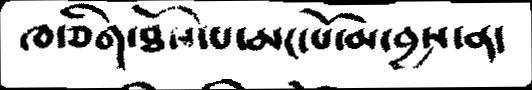ཁ་ཅིག་ཐོས་སཔ་མང་པོ་མ་བྱས་ན་
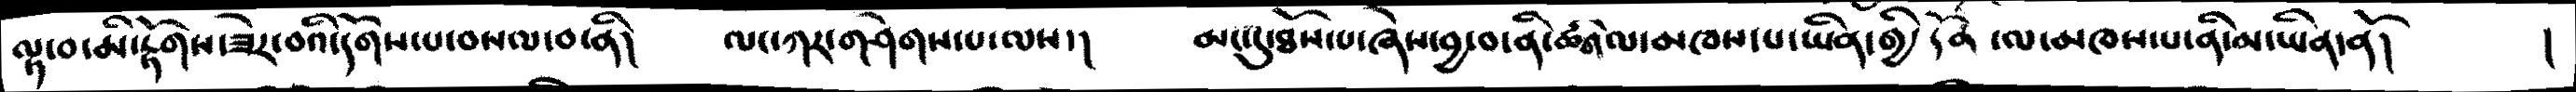ལྟ་བ་མི་རྟོགས་ཟེར་བའི་དགོས་པ་བསལ་བ་ནི།   ལང་ཀར་གཤེགས་པ་ལས་།     མང་དུ་ཐོས་པ་ཞེས་བྱ་བ་ནི་ཚིགལ་མཁས་པ་ཡིན་ དོན་ལ་མཁས་པ་ནི་མ་ཡིན་ནོ།
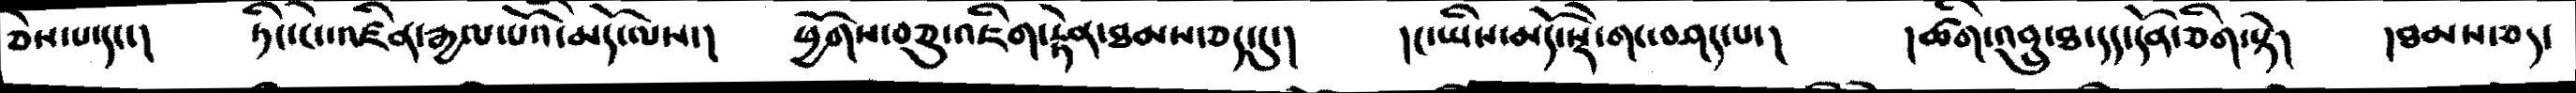ཅེས་པ་དང་།   ཏིང་ངེ་འཛིན་རྒྱལ་པོའི་མདོ་ལས་།    ཕྱོགས་བཅུའི་འཇིག་རྟེན་ཐམས་ཅད་དུ་།    །ང་ཡིས་མདོ་སྡེ་གང་བཤད་པ་།   །ཚིག་འབྲུ་ཐ་དད་དོན་ཅིག་སྟེ།   །ཐམས་ཅད་
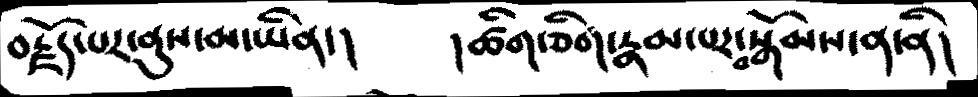བརྗོད་པར་ནུས་མ་ཡིན་།     །ཚིག་ཅིག་རྣམ་པར་བསྒོམས་ན་ནི།
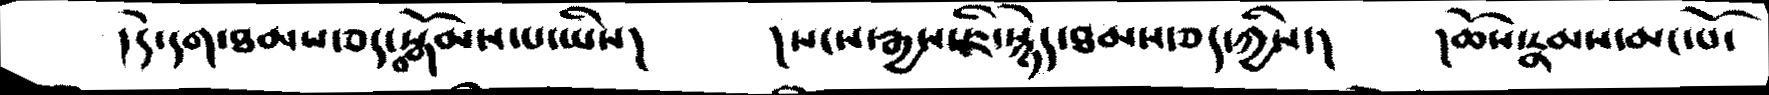།དེ་དག་ཐམས་ཅད་བསྒོམས་པ་ཡིས།      །སངས་རྒྱས་ཇི་སྙེད་ཐམས་ཅད་ཀྱིས་།      །ཆོས་རྣམས་མང་པོ་
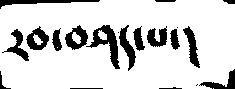རབ་བཤད་པ་།
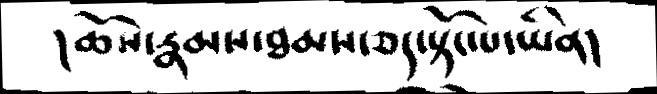།ཆོས་རྣམས་ཐམས་ཅད་སྟོང་པ་ཡིན།
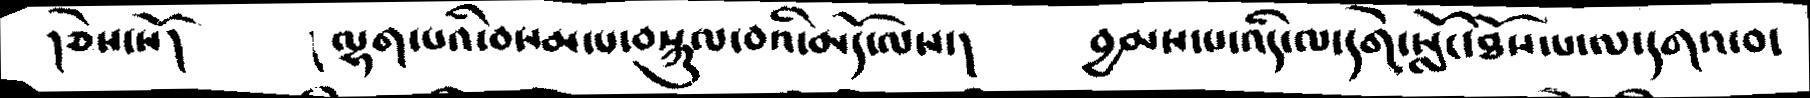།ཅེས་སོ།       །ལྷག་པའི་བསམ་པ་བསྐུལ་བའི་མདོ་ལས་།    བྱམས་པ་འདི་ལ་དགེ་སློང་ཐོས་པ་ལ་དགའ་བ་
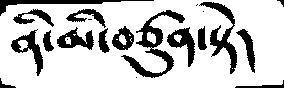ནི་མི་བཙུན་སྟེ།
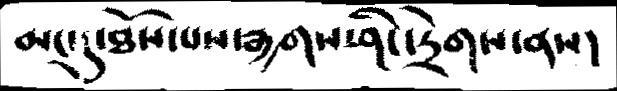མང་དུ་ཐོས་པས་རྒྱགས་ཤིང་དྲེགས་ནས།
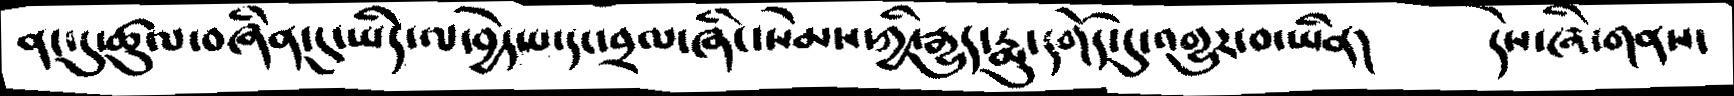ནང་དུ་ཚུལ་བཞིན་དུདཡིད་ལ་བྱེད་པ་དང་བྲལ་ཞིང་སེམས་ཀྱི་རྒྱུད་རྨུ་དགོད་དུ་འགྱུར་བ་ཡིན།    དེས་ཞི་གནས་
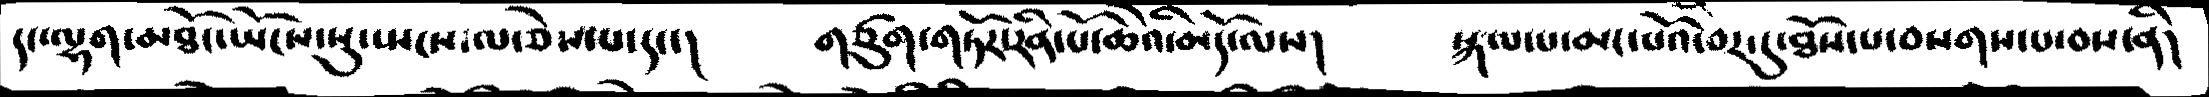དང་ལྷག་མཐོང་ཡོངས་སུ་སྤངས་ལ་ཅེས་པ་དང་།   གཙུག་གཏོར་རིན་པོ་ཆེའི་མདོ་ལས།  སྐལ་པ་མང་པོའི་བར་དུ་ཐོས་པ་བསགས་པ་བས་ནི།
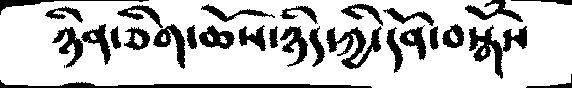ཉིན་ཅིག་ཆོས་ཉིད་ཀྱི་དོན་བསྒོཾས
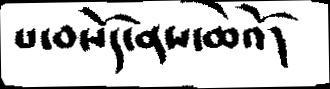པ་བསོད་ནས་ཆེའོ།
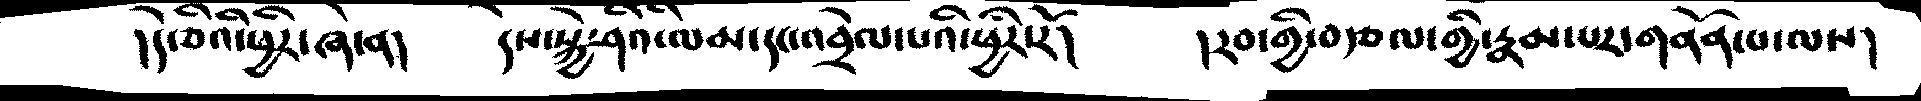།དེའི་ཕྱིར་ཞེ་ན།     དེས་སྐྱེ་ཤིའི་ལམ་དང་འབྲེལ་པའི་ཕྱིར།     རབ་གྱི་བརྩལ་གྱི་རྣམ་པར་གནོན་པ་ལས།
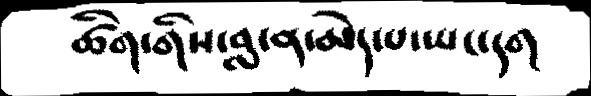ཚིག་གིས་བླ་ན་མེད་པ་ཡང་དག
